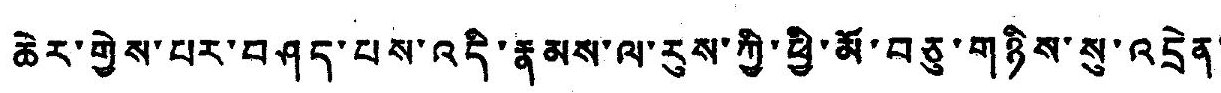ཆེར་གྱེས་པར་བཤད་པས་འདི་རྣམས་ལ་རུས་ཀྱི་ཕྱི་མོ་བཅུ་གཉིས་སུ་འདྲེན་
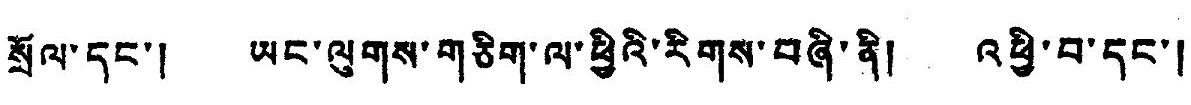སྲོལ་དང་། ཡང་ལུགས་གཅིག་ལ་ཕྱིའི་རིགས་བཞི་ནི། འཕྱི་བ་དང་།
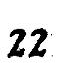22
